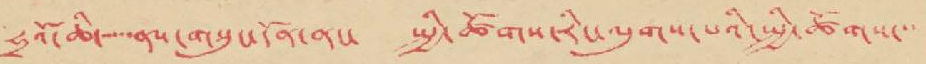ཧྲའོ་ཆི་་་་་་ནས་གསུང་དོན་ནང་ སྤྱི་ཚོགས་རིང་ལུགས་པའི་སྤྱི་ཚོགས་་་
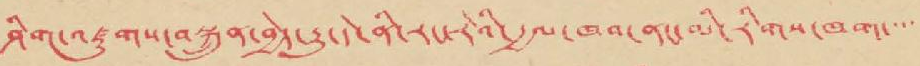ཤིག་འཛུགས་བསྐྲུན་བྱེད་རྒྱུ་དེ་ནི་རང་རེའི་རྒྱལ་ཁབ་ནང་མི་རིགས་ཁག་་་་
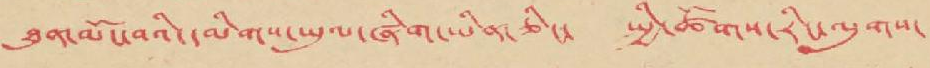ཐུན་མོང་བའི་དམིགས་ཡུལ་ཞིག་ཡིན་ཅིང་ སྤྱི་ཚོགས་རིང་ལུགས་
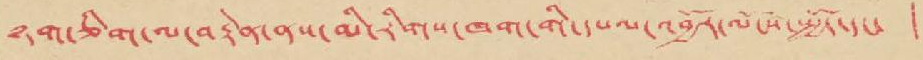ཉག་ཅིག་ལ་བརྟེན་ནས་མི་རིགས་ཁག་གི་དཔལ་འབྱོར་ལོངས་སྤྱོད་དང་།
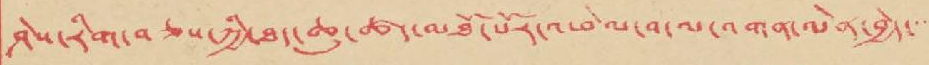ཤེས་རིག་བཅས་ཀྱི་ཐད་ཆུ་ཚད་མཐོ་པོར་འཕེལ་བ་ལ་འགན་ལེན་བྱེད་་་
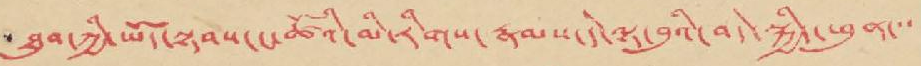ཐུབ་ཀྱི་ཡོད་སྟབས་ང་ཚོའི་མི་རིགས་རྣམས་དེ་ལྟ་བུའི་བདེ་སྐྱིད་ཕུན་་
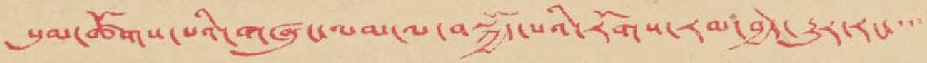སུམ་ཚོགས་པའི་གཞུང་ལམ་ལ་བསྐྱོད་པའི་རོགས་རམ་བྱེད་རྒྱུར་རང་་་་
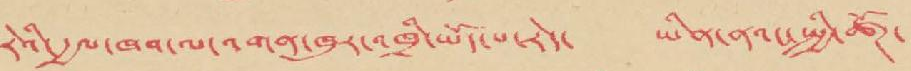རེའི་རྒྱལ་ཁབ་ལ་འགན་ཁུར་འཁྲི་ཡོད་པ་རེད་ ཡིན་ནའང་སྤྱི་ཚོཊ་
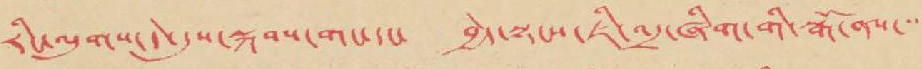རིང་ལུགས་དེ་དུས་སྐབས་གང་དང་ བྱེད་སྟངས་ཇི་འདྲ་ཞིག་གི་སྒོ་ནས་་་
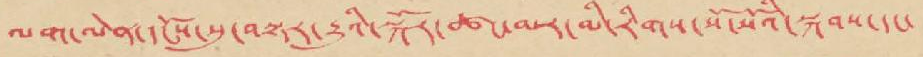ལག་ལེན་དངོས་སུ་བསྟར་རྒྱུའི་སྐོར་ཚང་མར་མི་རིགས་སོ་སོའི་སྐབས་དང་
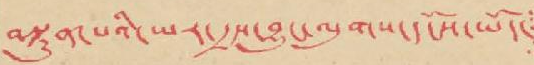བསྟུན་པའི་ཡར་རྒྱས་བྱུང་ལུགས་དངོས་ཡོད་
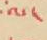ལ་
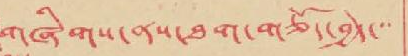གཞིགས་ནས་ཐག་གཅོད་བྱེད་་་
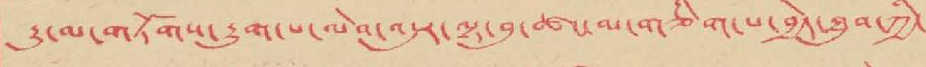རྒྱུ་མ་གཏོགས་རྒྱུག་པ་ལེབ་འདུར་ལྟ་བུ་ཚང་མ་གཅིག་པ་བྱེད་ཐུབ་ཀྱི་
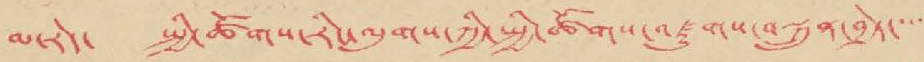མ་རེད་ སྤྱི་ཚོགས་རིང་ལུགས་ཀྱི་སྤྱི་ཚོགས་འཛུགས་བསྐྲུན་བྱེད་་་་
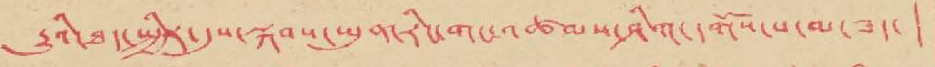རྒྱུའི་ཐད་སྤྱིར་དུས་སྐབས་ཡུན་རིང་གང་འཚམས་ཤིག་དགོས་པ་མ་ཟད་ །
